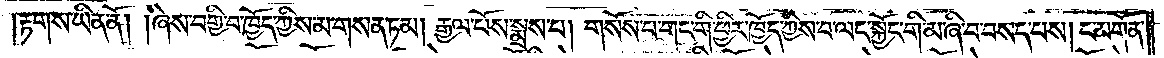རྟགས་ཡིན་ནོ། །ཞེས་བགྱི་བ་ཁྱོད་ཀྱིས་མ་གསན་ཏམ། རྒྱལ་པོས་སྨྲས་པ། གསོས་པ་གང་གི་ཕྱིར་ཁྱོད་ཀྱིས་བ་ལང་སྐྱོང་གི་མ་ཞི་བ་བསད་པས། ང་མགོན་
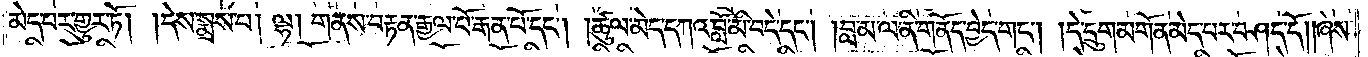མེད་པར་གྱུར་ཏོ། །དེས་སྨྲས་པ། ལྷ། གནས་བརྟན་རྒྱལ་པོ་རྒན་པོ་དང༌། །ཚུལ་མེད་དཀའ་བློ་མི་བདེ་དང༌། །བླ་མ་ལ་ནི་གནོད་བྱེད་གང༌། །དེ་དྲུག་མགོན་མེད་པར་བཤད་དོ། །ཞེས་
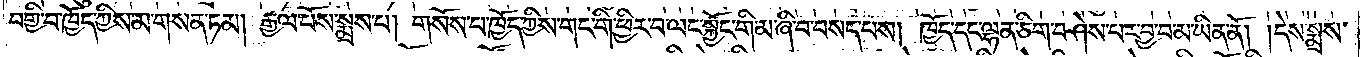བགྱི་བ་ཁྱོད་ཀྱིས་མ་གསན་ཏམ། རྒྱལ་པོས་སྨྲས་པ། གསོས་པ་ཁྱོད་ཀྱིས་གང་གི་ཕྱིར་བ་ལང་སྐྱོང་གི་མ་ཞི་བ་བསད་པས། ཁྱོད་དང་ལྷན་ཅིག་བཤེས་པར་བྱ་བ་མ་ཡིན་ནོ། །དེས་སྨྲས་
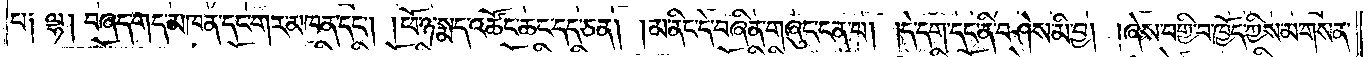པ༑ ལྷ། བཞད་གད་མཁན་དང་གར་མཁན་དང༌། །ཕོ་ཉ་སྨད་འཚོང་ཆང་དད་ཅན། །མ་ནིང་དེ་བཞིན་གཞུང་ངན་པ། །དེ་དག་དང་ནི་བཤེས་མི་བྱ། །ཞེས་བགྱི་བ་ཁྱོད་ཀྱིས་མ་གསན་
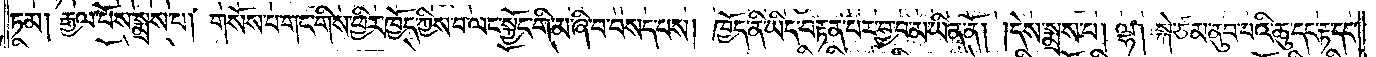ཏམ། རྒྱལ་པོས་སྨྲས་པ། གསོས་པ་གང་གིས་ཕྱིར་ཁྱོད་ཀྱིས་བ་ལང་སྐྱོང་གི་མ་ཞི་བ་བསད་པས། ཁྱོད་ནི་ཡིད་བརྟན་པར་བྱ་བ་མ་ཡིན་ནོ། །དེས་སྨྲས་པ། ལྷ། སྐེ་ཙམ་ནུབ་པའི་ཆུ་དང་རྟ་དང་
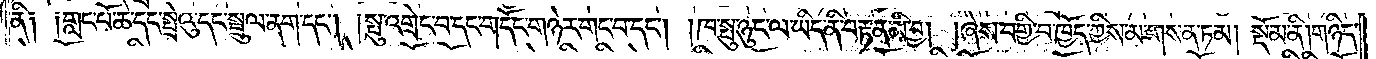ནི༑ ༑གླང་པོ་ཆེ་དང་སྤྲེའུ་དང་སྦྲུལ་ནག་དང༌། །སྤུ་འགྲེང་བ་དང་གདོང་གཉེར་གང་བ་དང༌། །ཁ་སྤུ་ཉུང་ལ་ཡིད་ནི་བརྟན་མི་བྱ། །ཞེས་བགྱི་བ་ཁྱོད་ཀྱིས་མ་གསན་ཏམ། སྡོམ་ནི། གཉིད་
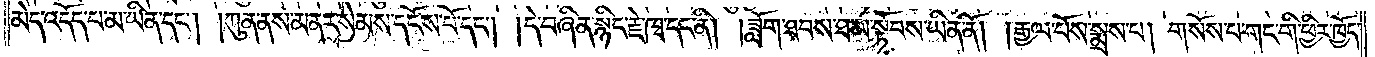མེད་འདོད་པ་མ་ཡིན་དང༌། །ཀུན་ནས་མནར་སེམས་དངོས་པོ་དང༌། །དེ་བཞིན་སྙིང་རྗེ་ཁྭ་དང་ནི། །ཟློག་ཐབས་ཐ་མ་སྟོབས་ཡིན་ནོ། །རྒྱལ་པོས་སྨྲས་པ། གསོས་པ་གང་གི་ཕྱིར་ཁྱོད་
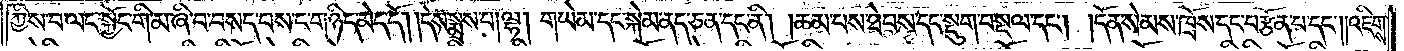ཀྱིས་བ་ལང་སྐྱོང་གི་མ་ཞི་བ་བསད་པས་ང་གཉིད་མེད་དོ། །དེས་སྨྲས་པ། ལྷ། གཡེམ་དང་སྐེམ་ནད་ཅན་དང་ནི། །ཆམ་པས་ཐེབས་དང་སྡུག་བསྔལ་དང༌། །དོན་སེམས་ཁྲོས་དང་བརྩོན་པ་དང༌། །འཇིགས་
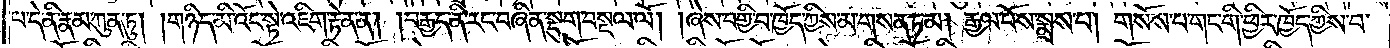པ་དེ་ནི་རྣམ་ཀུན་ཏུ། །གཉིད་མི་འོང་སྟེ་འཇིག་རྟེན་ན། །བརྒྱད་ནི་རང་བཞིན་སྡུག་བསྔལ་ལོ། །ཞེས་བགྱི་བ་ཁྱོད་ཀྱིས་མ་གསན་ཏམ། རྒྱལ་པོས་སྨྲས་པ། གསོས་པ་གང་གི་ཕྱིར་ཁྱོད་ཀྱིས་བ་
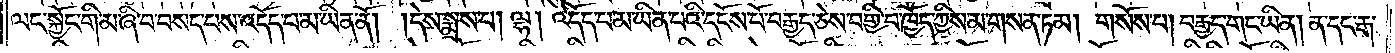ལང་སྐྱོང་གི་མ་ཞི་བ་བསད་པས་འདོད་པ་མ་ཡིན་ནོ། །དེས་སྨྲས་པ། ལྷ། འདོད་པ་མ་ཡིན་པའི་དངོས་པོ་བརྒྱད་ཅེས་བགྱི་བ་ཁྱོད་ཀྱིས་མ་གསན་ཏམ། གསོས་པ། བརྒྱད་གང་ཡིན། ན་དང་རྒ་
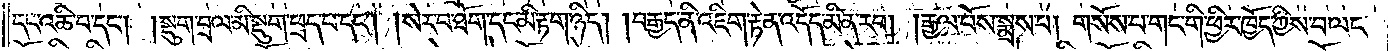དང་འཆི་བ་དང༌། །སྡུག་བྲལ་མི་སྡུག་ཕྲད་པ་དང༌། །སེར་བ་ཐོག་དང་མི་རྟག་ཉིད། །བརྒྱད་ནི་འཇིག་རྟེན་འདོད་མིན་རབ། །རྒྱལ་པོས་སྨྲས་པ། གསོས་པ་གང་གི་ཕྱིར་ཁྱོད་ཀྱིས་བ་ལང་
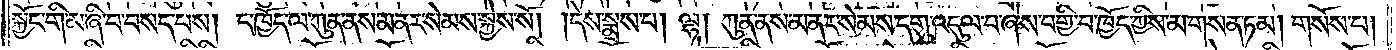སྐྱོང་གི་མ་ཞི་བ་བསད་པས། ང་ཁྱོད་ལ་ཀུན་ནས་མནར་སེམས་སྐྱེས་སོ། །དེས་སྨྲས་པ། ལྷ། ཀུན་ནས་མནར་སེམས་དགུ་འདུལ་བ་ཞེས་བགྱི་བ་ཁྱོད་ཀྱིས་མ་གསན་ཏམ། གསོས་པ།
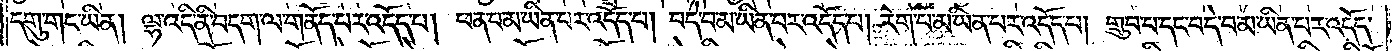དགུ་གང་ཡིན། ལྷ་འདི་ནི་བདག་ལ་གནོད་པར་འདོད་པ། ཕན་པ་མ་ཡིན་པར་འདོད་པ། བདེ་བ་མ་ཡིན་པར་འདོད་པ། རེག་པ་མ་ཡིན་པར་འདོད་པ། གྲུབ་པ་དང་བདེ་བ་མ་ཡིན་པར་འདོད་
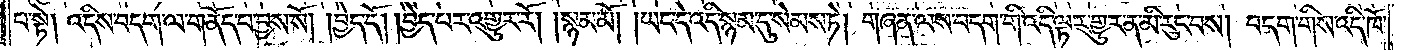པ་སྟེ། འདིས་བདག་ལ་གནོད་པ་བྱས་སོ། །བྱེད་དོ། །བྱེད་པར་འགྱུར་རོ། །སྙམ་མོ། །ཡང་དེ་འདི་སྙམ་དུ་སེམས་ཏེ། གཞན་ལས་བདག་གི་འདི་ལྟར་གྱུར་ན་མི་རུང་བས། བདག་གིས་འདི་ཁོ་
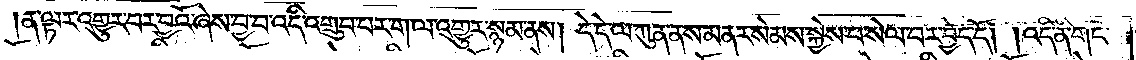ན་ལྟར་འགྱུར་བར་བྱའོ་ཞེས་བྱ་བ་འདི་འགྲུབ་པར་ག་ལ་འགྱུར་སྙམ་ནས། དེ་དེ་ལ་ཀུན་ནས་མནར་སེམས་སྐྱེས་པ་སེལ་བར་བྱེད་དོ། །འདི་ནི་གང་
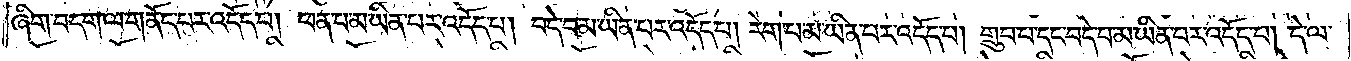ཞིག་བདག་ལ་གནོད་པར་འདོད་པ། ཕན་པ་མ་ཡིན་པར་འདོད་པ། བདེ་བ་མ་ཡིན་པར་འདོད་པ། རེག་པ་མ་ཡིན་པར་འདོད་པ། གྲུབ་པ་དང་བདེ་བ་མ་ཡིན་པར་འདོད་པ། དེ་ལ་
